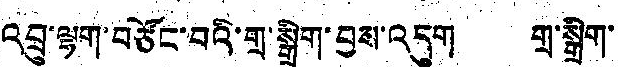འབྲུ་ལྷག་བཙོང་བའི་གྲ་སྒྲིག་བྱས་འདུག གྲ་སྒྲིག་
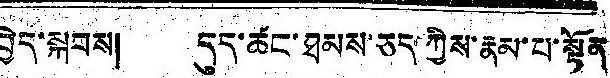བྱེད་སྐབས། དུད་ཚང་ཐམས་ཅད་ཀྱིས་རྣམ་པ་སྟོན
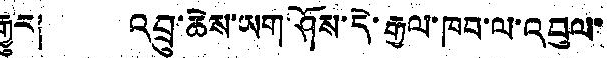རྒྱུར། འབྲུ་ཆེས་ཡག་ཤོས་དེ་རྒྱལ་ཁབ་ལ་འབུལ་
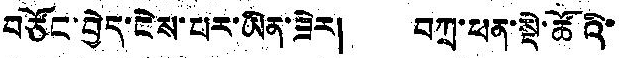བཙོང་བྱེད་ངེས་པར་ཡིན་ཟེར། བཀྲ་ཕན་སྡེ་ཚོའི་
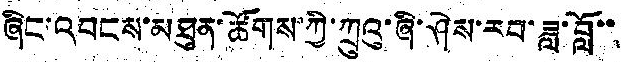ཞིང་འབངས་མཐུན་ཚོགས་ཀྱི་ཀྲུའུ་ཞི་ཤེས་རབ་ཟླ་བློ་་
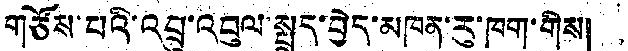གཙོས་པའི་འབྲུ་འབུལ་སྤྲད་བྱེད་མཁན་རུ་ཁག་གིས།
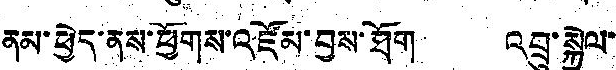ནམ་ཕྱེད་ནས་ཕྱོགས་འཛོམ་བྱས་ཐོག འབྲུ་སྐྱེལ་
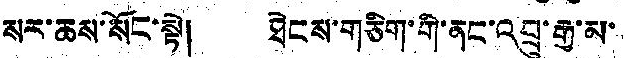སར་ཆས་སོང་སྟེ། ཐེངས་གཅིག་གི་ནང་འབྲུ་རྒྱ་མ་
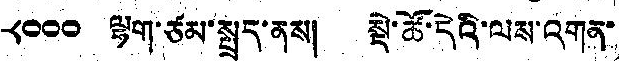༨༠༠༠ ལྷག་ཙམ་སྤྲད་ནས། སྡེ་ཚོ་དེའི་ལས་འགན་
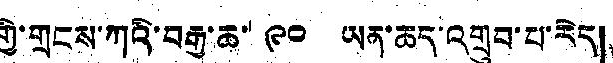གྱི་གྲངས་ཀའི་བརྒྱ་ཆ་ ༩༠ ཡན་ཆད་འགྲུབ་པ་རེད།
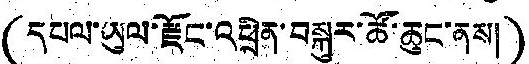(དཔལ་ཡུལ་རྫོང་འཕྲིན་བསྐུར་ཚོ་ཆུང་ནས།)
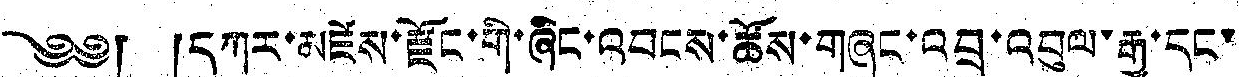༄༅། །དཀར་མཛེས་རྫོང་གི་ཞིང་འབངས་ཚོས་གཞུང་འབྲུ་འབུལ་རྒྱུ་དང་
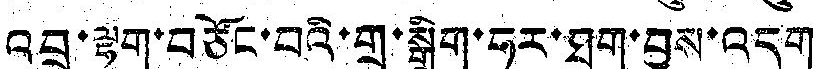འབྲུ་ལྷག་བཙོང་བའི་གྲ་སྒྲིག་ཧུར་ཐག་བྱས་འདུག
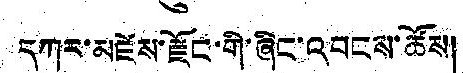དཀར་མཛེས་རྫོང་གི་ཞིང་འབངས་ཚོས།
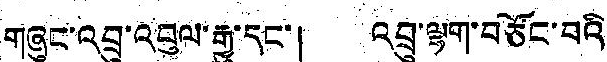གཞུང་འབྲུ་འབུལ་རྒྱུ་དང་། འབྲུ་ལྷག་བཙོང་བའི་
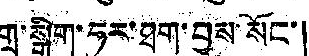གྲ་སྒྲིག་ཧུར་ཐག་བྱས་སོང་།
